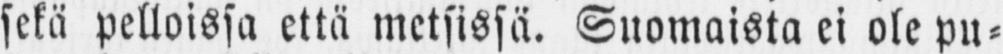sekä pelloissa että metsissä. Suomaista ei ole pu-
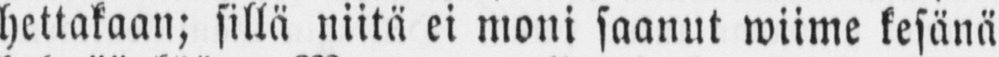hettakaan; sillä niitä ei moni saanut wiime kesänä
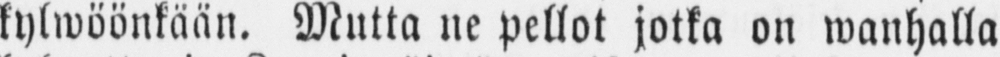kylwöönkään. Mutta ne pellot jotka on wanhalla
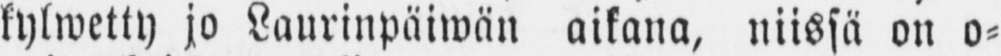kylwetty jo Laurinpäiwän aikana, niissä on o-
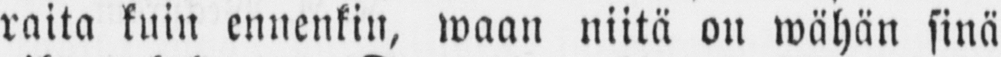raita kuin ennenkin, waan niitä on wähän sinä
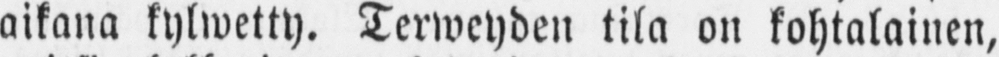aikana kylwetty. Terweyden tila on kohtalainen,
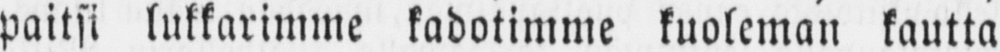paitsi lukkarimme kadotimme kuoleman kautta
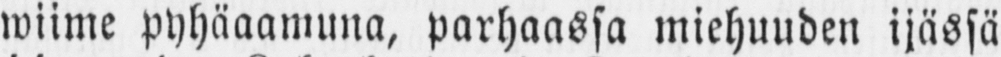wiime pyhäaamuna, parhaassa miehuuden ijässä
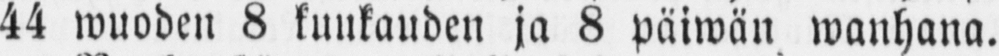44 wuoden 8 kuukauden ja 8 päiwän wanhana.
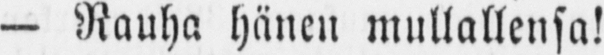— Rauha hänen mullallensa!
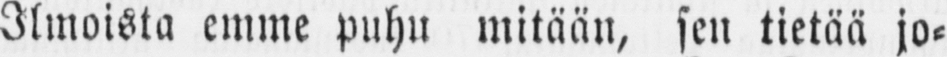Ilmoista emme puhu mitään, sen tietää jo-
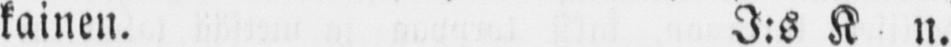kainen. J:s K. n.
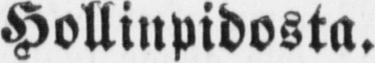Hollinpidosta.
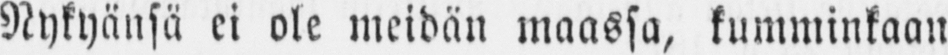Nykyänsä ei ole meidän maassa, kumminkaan
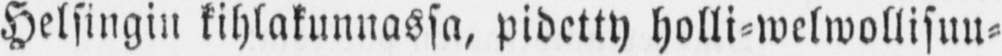Helsingin kihlakunnassa, pidetty holli-welwollisuu-
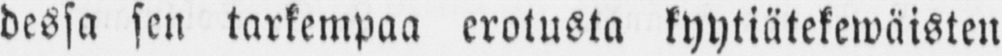dessa sen tarkempaa erotusta kyytiätekewäisten
